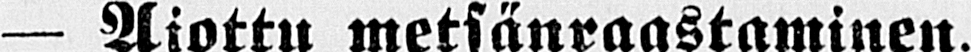— Aiottu metsänraastaminen.
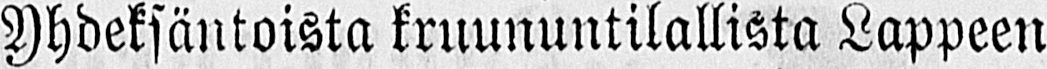Yhdeksän toista kruununtilallista Lappeen
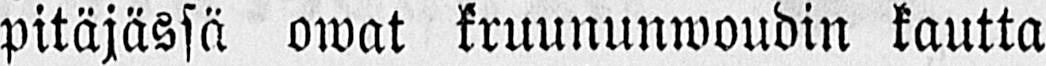pitäjässä owat kruununwoudin kautta
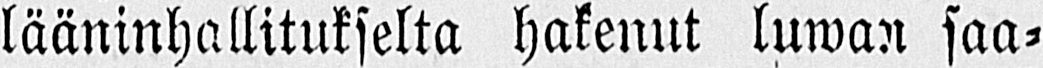lääninhallitukselta hakenut luwan saa-
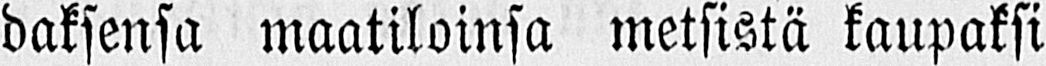daksensa maatiloinsa metsistä kaupaksi
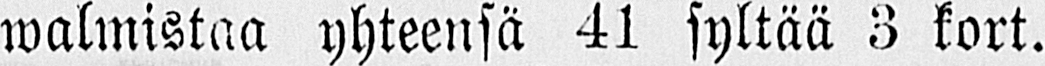walmistaa yhteensä 41 syltää 3 kort.
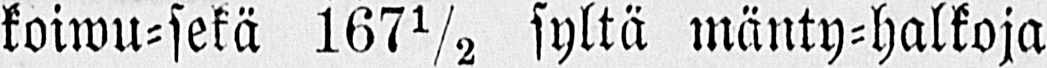koiwu-sekä 167½ syltä mänty-halkoja
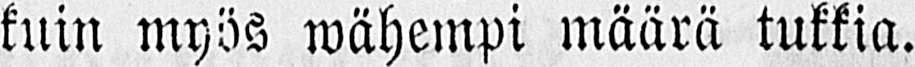kuin myös wähempi määrä tukkia.
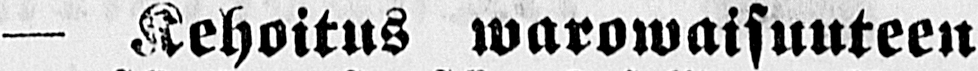— Kehoitus warowaisuuteen
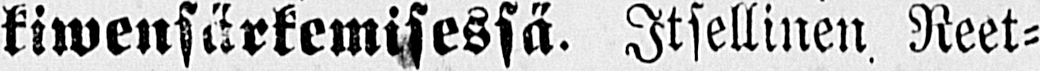kiwensärkemisessä. Itsellinen, Reet-
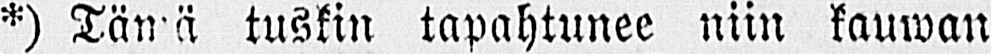*) Tämä tuskin tapahtunee niin kauwan
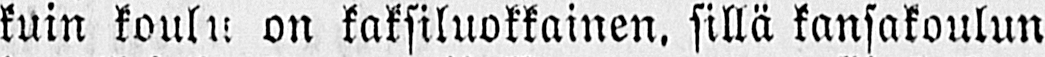kuin koulu on kaksiluokkainen, sillä kansakoulun
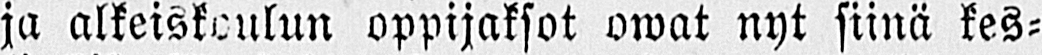ja alkeiskoulun oppijaksot owat nyt siinä kes-
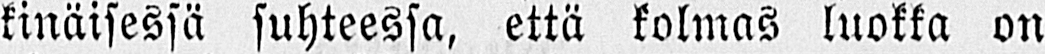kinäisessä suhteessa, että kolmas luokka on
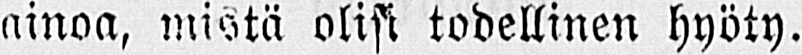ainoa, mistä olisi todellinen hyöty.
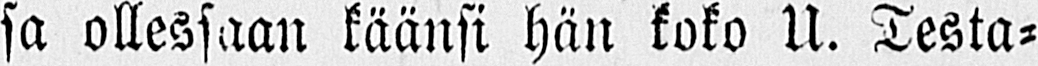sa ollessaan käänsi hän koko U. Testa-
